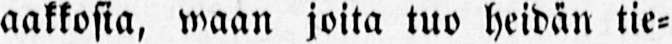aakkosia, waan joita tuo heidän tie-
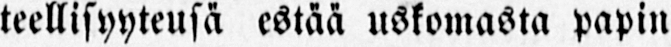teellisyyteusä estää uskomasta papin
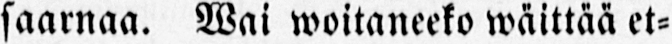saarnaa. Wai woitaneeko wäittää et-
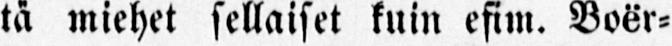tä miehet sellaiset kuin esim. Boër-
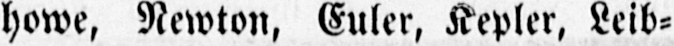howe, Newton, Euler, Kepler, Leib-
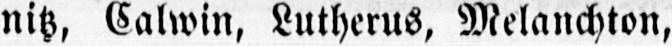niz, Calwin, Lutherus, Melanchton,
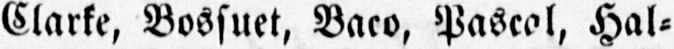Clarke, Bossuet, Baco, Pascal, Hal-
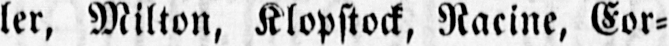ler, Milton, Klopstock, Nacine, Eor-
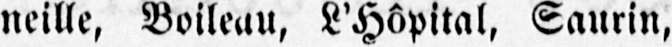neille, Boileau, L'Hôpital, Saurin,
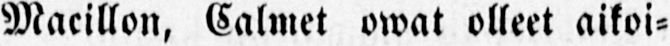Macillon, Calmet owat olleet aikoi-
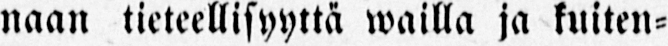naan tieteellisyyttä wailla ja kuiten-
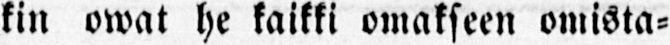kin owat he kaikki omakseen omista-
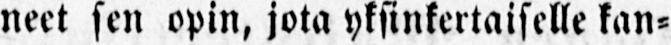neet sen opin, jota yksinkertaiselle kan-
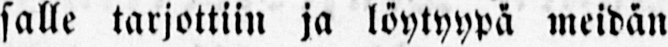salle tarjottiin ja löytyypä meidän
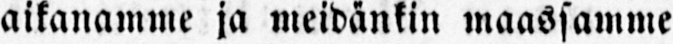aikanamme ja meidänkin maassamme
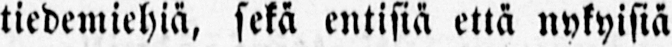tiedemiehiä, sekä entisiä että nykyisiä
